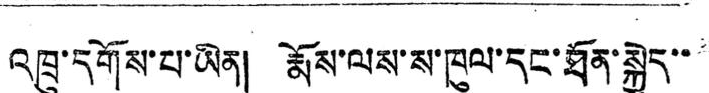འཁྲུ་དགོས་པ་ཡིན། རྨོས་ལས་ས་ཁུལ་དང་ཐོན་སྐྱེད་་
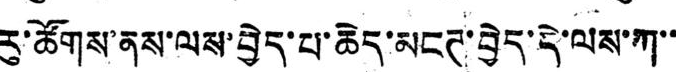རུ་ཚོགས་ནས་ལས་བྱེད་པ་ཆེད་མངཊ་བྱེད་དེ་ལས་ཀ་་
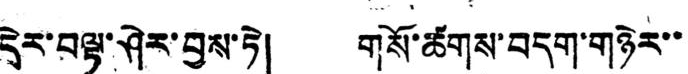དེར་བལྟ་ཤེར་བྱས་ཏེ། གསོ་ཚགས་བདག་གཉེར་་
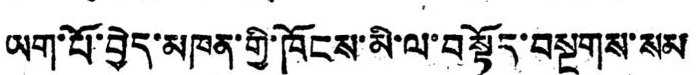ཡག་པོ་བྱེད་མཁན་གྱི་ཁོངས་མི་ལ་བསྟོད་བསྔགས་སམ
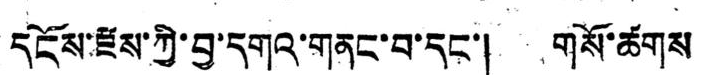དངོས་རྫས་ཀྱི་བྱ་དགའ་གནང་བ་དང་། གསོ་ཚགས
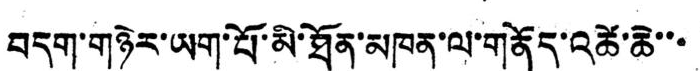བདག་གཉེར་ཡག་པོ་མི་ཐོན་མཁན་ལ་གནོད་འཚེ་ཆེ་་་
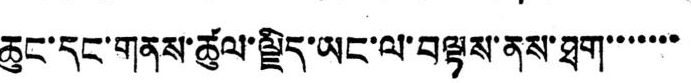ཆུང་དང་གནས་ཚུལ་ལྗིད་ཡང་ལ་བལྟས་ནས་ཐག་་་་་་་
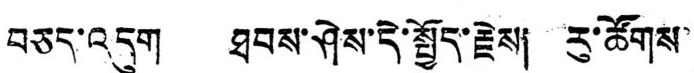བཅད་འདུག ཐབས་ཤེས་དེ་སྤྱོད་རྗེས། རུ་ཚོགས་
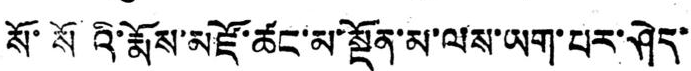སོ་སོའི་རྨོས་མཛོ་ཚང་མ་སྔོན་མ་ལས་ཡག་པར་ཤེད་
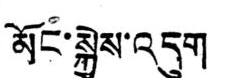མོང་སྐྱེས་འདུག
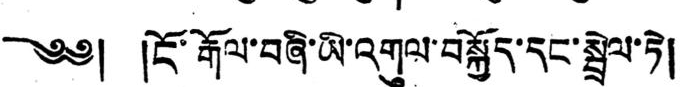༄༅། །ངོ་རྒོལ་བཞི་ཡི་འགུལ་བསྐྱོད་དང་སྦྲེལ་ཏེ།
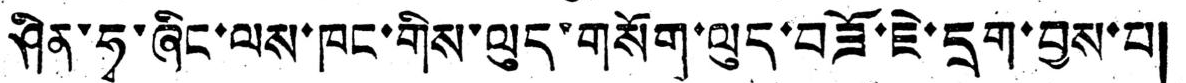ཤིན་ཧྭ་ཞིང་ལས་ཁང་གིས་ལུད་གསོག་ལུད་བཟོ་ཇེ་དྲག་བྱས་པ།
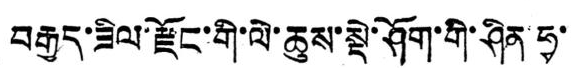བརྒྱད་ཟིལ་རྫོང་གི་ལེ་ཆུས་སྡེ་ཤོག་གི་ཤིན་ཧྭ་
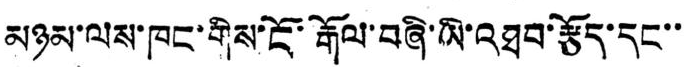མཉམ་ལས་ཁང་གིས་ངོ་རྒོལ་བཞི་ཡི་འཐབ་རྩོད་དང་་
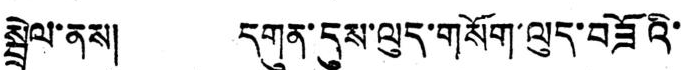སྦྲེལ་ནས། དགུན་དུས་ལུད་གསོག་ལུད་བཟོའི་
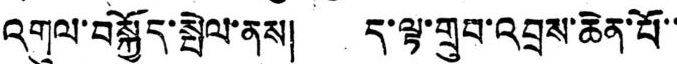འགུལ་བསྐྱོད་སྤེལ་ནས། ད་ལྟ་གྲུབ་འབྲས་ཆེན་པོ་་
